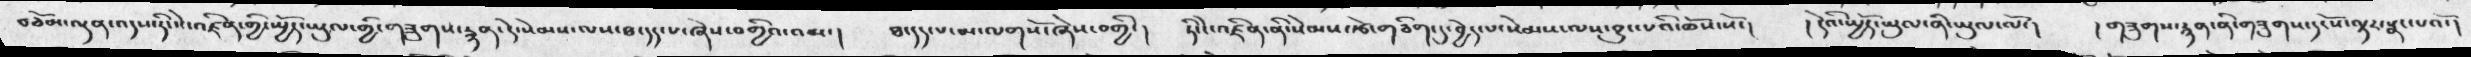བཅོམ་ལྡན་འདས་ཏིང་ངེ་འཛིན་གྱི་སྤྱོད་ཡུལ་གྱི་གཟུགས་རྙན་དེ་སེམས་ལས་ཐ་དད་པ་ཞེས་བགྱིའ་འམ་།  ཐ་དད་པ་མ་ལགསོ་ཞེས་བགྱི་།  ཏི་ངེ་འཛིན་ནི་སེམས་རྩེ་གཅིག་དུ་བྱེད་པ་སེམས་ལས་བྱུང་པའི་ཆོས་སོ་།  ། དེའི་སྤྱོད་ཡུལ་ནི་ཡུལ་ལོ་།  ། གཟུགས་རྙན་ནི་གཟུགས་དང་སོ་ལྟར་སྣང་པའོ་།
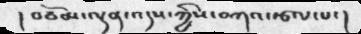། བཅོམ་ལྡན་འདས་ཀྱིས་བཀའ་རྩལ་པ་།
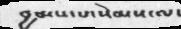བྱམས་པ་སེམས་ལ་
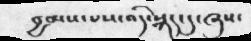བྱམས་པས་འདི་སྐད་དུ་ཞུས་
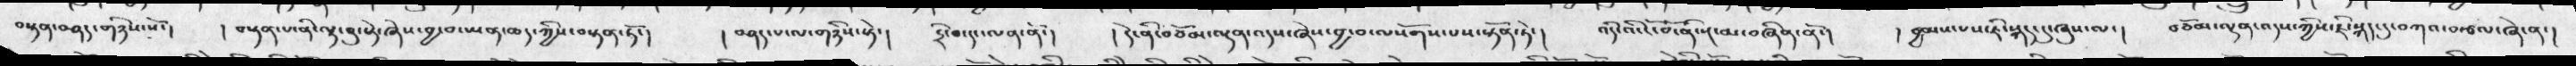བསྟན་བཤད་གཉིས་སོ་།  ། བསྟན་པ་ནི་ལྟ་བུ་སྟེ་ཞེས་བྱ་བ་ཡན་ཆད་ཀྱིས་བསྟན་ཏོ་།  ། བཤད་པ་ལ་གཉིས་སྟེ་།  དྲི་བ་དང་ལན་ནོ་།  ། དེ་ནི་བཅོམ་ལྡན་འདས་ཞེས་བྱ་བ་ལསོགས་པས་སྟོན་ཏེ་།  འདི་འི་ངོ་བོ་སྔ་མ་བཞིན་ནོ་།  ། བྱམས་པས་ཇི་སྐད་དུ་ཞུས་ལ་།  བཅོམ་ལྡན་འདས་ཀྱིས་ཇི་སྐད་དུ་བཀའ་བརྩལ་ཞེ་ན་།
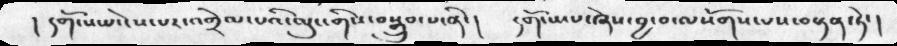།  དགོངས་པ་ངེས་པར་འགྲེལ་པའི་ལུང་གིས་བསྒྲུབ་པ་ནི་།  དགོངས་པ་ཞེས་བྱ་བ་ལསོགས་པས་བསྟན་ཏེ་།
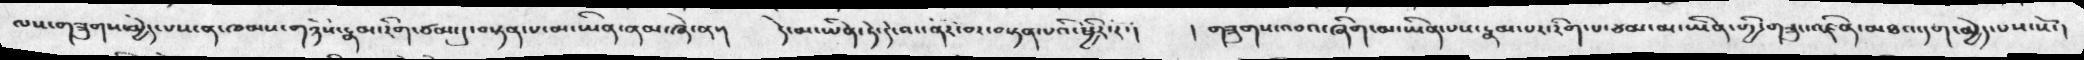ལས་གཟུགས་མྱེད་པས་ན་ཁམས་གཉིས་རྣམ་རིག་ཙམ་དུ་བསྟན་པ་མ་ཡིན་ནམ་ཞེ་ན་།  དེ་མ་ཡིན་ཏེ་དེ་བང་ནོར་བར་བསྟན་པའི་ཕྱིར་རོ་།   ། གཟུགས་འབའ་ཞིག་མ་ཡིན་པས་རྣམ་པར་རིག་པ་ཙམ་མ་ཡིན་གྱི་གཟུང་འཛིན་མཐའ་དག་མྱེད་པས་སོ་།
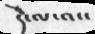དེ་ལ་འང་
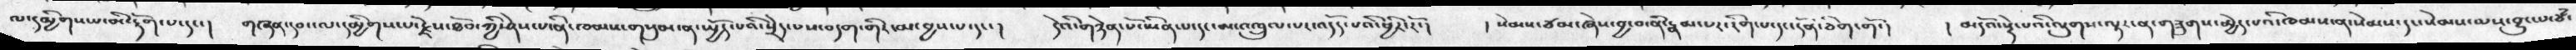ལ་དམྱིགས་པ་མི་རྟོག་པ་དང་།  གཞན་དབང་ལ་དམྱིགས་པ་རྗེས་ཐོབ་ཀྱི་ཤེས་པ་ནི་ཁམས་གསུམ་ན་སྤྱོད་པའི་སྲེད་པས་བདག་གིར་མ་བྱས་པ་དང་།  དེའི་གཉེན་པོ་ཡིན་པ་དང་མ་འཁྲུལ་པར་འདོད་པའི་ཕྱིར་རོ་།  ། སེམས་ཙམ་ཞེས་བྱ་བ་ནི་རྣམ་པར་རིག་པ་དང་དོན་ཅིག་གོ་།  ། མདོའ་སྡེ་པའི་ལུགས་ལྟར་ན་གཟུགས་མྱེད་པའི་ཁམས་ན་སེམས་དང་སེམས་ལས་བྱུང་པ་ཐཾ་
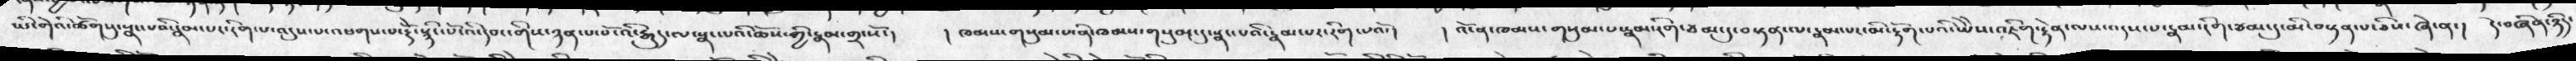ཡི་གེའི་ཚོགསུ་སྣང་པའི་རྣམ་པར་རིག་པ་འདུས་པ་འཕགས་པ་རྡོེ་སྙིང་པོ་འི་དབང་གིས་ཉན་པ་པོ་འི་རྒྱུད་ལ་སྣང་པའི་ཆོས་ཀྱི་རྣམ་གྲངསོ་།  །  ཁམས་གསུམ་པ་ནི་ཁམས་གསུམ་དུ་སྣང་པའི་རྣམ་པར་རིག་པའོ་།   ། འོ་ན་ཁམས་གསུམ་པ་རྣམ་རིག་ཙམ་དུ་བསྟན་ལ་རྣམ་པར་མི་རྟོག་པའི་ཡེེས་འཇིག་རྟེན་ལས་འདས་པ་རྣམ་རིག་ཙམ་དུ་མི་བསྟན་པ་ཅིས་ཞེ་ན་།  དེ་བཞིན་ཉིད་
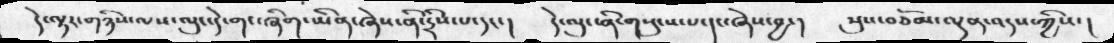དེ་ལྟར་གཉིས་ལས་ལུང་དེ་གང་ཞིག་ཡིན་ཞེས་ནི་དྲིས་པ་དང་།  དེ་ལུང་ནི་གསུངས་པ་དང་ཞེས་བྱ་།  སུས་བཅོམ་ལྡན་འདས་ཀྱིས་།
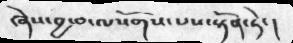ཞེས་བྱ་བ་ལསོགས་པས་སྟོན་ཏེ་།
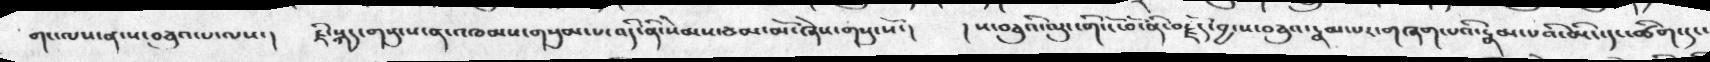གང་ལས་ན་ས་བཅུའ་པ་ལས་།  ཇི་སྐད་གསུངས་ན་འཁམས་གསུམ་པ་འདི་ནི་སེམས་ཙམ་མོ་ཞེས་གསུངསོ་།  ། ས་བཅུའི་ལུང་གི་ངོ་བོ་ནི་བརྗོད་བྱ་ས་བཅུའ་རྣམ་པར་གཞག་པའི་རྣམ་པའི་མིང་དང་ཚིག་དང་
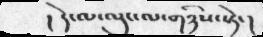། དེ་ལ་ལུང་ལ་གཉིས་སྟེ་།
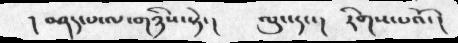། བཤད་པ་ལ་གཉིས་སྟེ་།  ལུང་དང་།  རིགས་པའོ་།
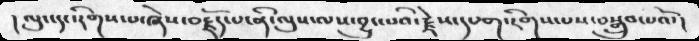། ལུང་དང་རིགས་པ་ཞེས་བརྗོད་པ་ནི་ལུས་ལས་བྱུང་པའི་རྗེས་དཔག་རིགས་པས་བསྒྲུབ་པའོ་།
